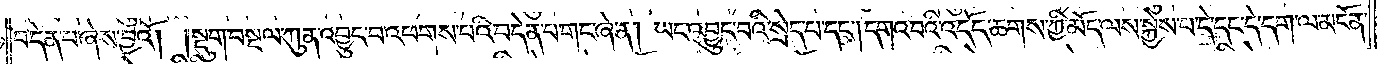བདེན་པ་ཞེས་བྱའོ། །སྡུག་བསྔལ་ཀུན་འབྱུང་བ་འཕགས་པའི་བདེན་པ་གང་ཞེ་ན། ཡང་འབྱུང་བའི་སྲེད་པ་དང༌། དགའ་བའི་འདོད་ཆགས་ཀྱི་མོད་ལས་སྐྱེས་པ་དེ་དང་དེ་དག་ལ་མངོན་
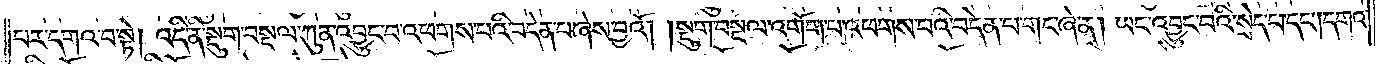པར་དགའ་བ་སྟེ། འདི་ནི་སྡུག་བསྔལ་ཀུན་འབྱུང་བ་འཕགས་པའི་བདེན་པ་ཞེས་བྱའོ། །སྡུག་བསྔལ་འགོག་པ་འཕགས་པའི་བདེན་པ་གང་ཞེ་ན། ཡང་འབྱུང་བའི་སྲེད་པ་དང༌། དགའ་
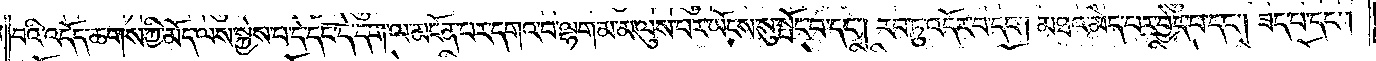བའི་འདོད་ཆགས་ཀྱི་མོད་ལས་སྐྱེས་པ་དེ་དང་དེ་དག་ལ་མངོན་པར་དགའ་བ་ལྷག་མ་མ་ལུས་པར་ཡོངས་སུ་སྤོང་བ་དང༌། རབ་ཏུ་འདོར་བ་དང༌། མཐའ་མེད་པར་བྱེད་པ་དང༌། ཟད་པ་དང༌།
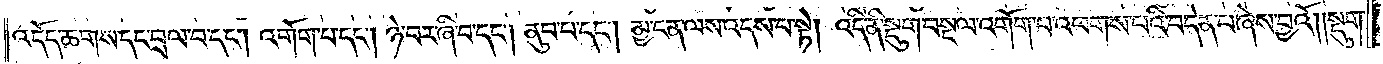འདོད་ཆགས་དང་བྲལ་བ་དང༌། འགོག་པ་དང༌། ཉེ་བར་ཞི་བ་དང༌། ནུབ་པ་དང༌། མྱ་ངན་ལས་འདས་པ་སྟེ། འདི་ནི་སྡུག་བསྔལ་འགོག་པ་འཕགས་པའི་བདེན་པ་ཞེས་བྱའོ། །སྡུག་
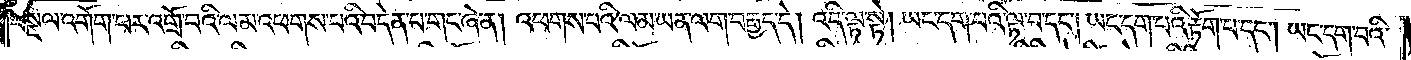བསྔལ་འགོག་པར་འགྲོ་བའི་ལམ་འཕགས་པའི་བདེན་པ་གང་ཞེ་ན། འཕགས་པའི་ལམ་ཡན་ལག་བརྒྱད་དེ། འདི་ལྟ་སྟེ། ཡང་དག་པའི་ལྟ་བ་དང༌། ཡང་དག་པའི་རྟོག་པ་དང༌། ཡང་དག་པའི་
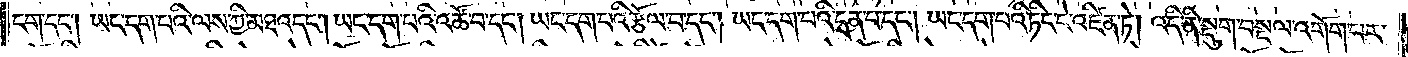ངག་དང༌། ཡང་དག་པའི་ལས་ཀྱི་མཐའ་དང༌། ཡང་དག་པའི་འཚོ་བ་དང༌། ཡང་དག་པའི་རྩོལ་བ་དང༌། ཡང་དག་པའི་དྲན་པ་དང༌། ཡང་དག་པའི་ཏིང་ངེ་འཛིན་ཏེ། འདི་ནི་སྡུག་བསྔལ་འགོག་པར་
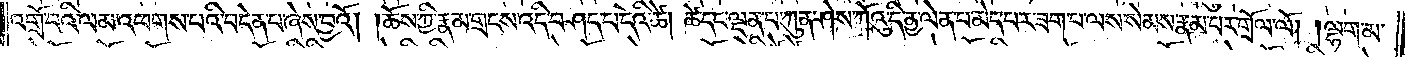འགྲོ་བའི་ལམ་འཕགས་པའི་བདེན་པ་ཞེས་བྱའོ། །ཆོས་ཀྱི་རྣམ་གྲངས་འདི་བཤད་པ་དེའི་ཚེ། ཚེ་དང་ལྡན་པ་ཀུན་ཤེས་ཀོའུ་དི་ནྱ་ལེན་པ་མེད་པར་ཟག་པ་ལས་སེམས་རྣམ་པར་གྲོལ་ལོ། །ལྷག་མ་
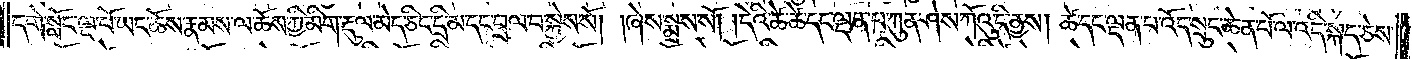དགེ་སློང་ལྔ་པོ་ཡང་ཆོས་རྣམས་ལ་ཆོས་ཀྱི་མིག་རྡུལ་མེད་ཅིང་དྲི་མ་དང་བྲལ་བ་སྐྱེས་སོ། །ཞེས་སྨྲས་སོ། །དེའི་ཚེ་ཚེ་དང་ལྡན་པ་ཀུན་ཤེས་ཀོའུ་དི་ནྱས། ཚེ་དང་ལྡན་པ་འོད་སྲུང་ཆེན་པོ་ལ་འདི་སྐད་ཅེས་
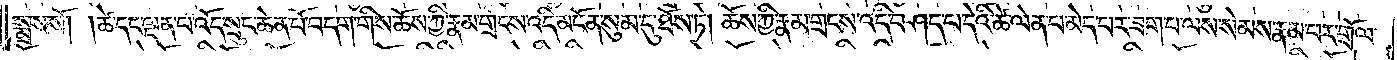སྨྲས་སོ། །ཚེ་དང་ལྡན་པ་འོད་སྲུང་ཆེན་པོ་བདག་གིས་ཆོས་ཀྱི་རྣམ་གྲངས་འདི་མངོན་སུམ་དུ་ཐོས་ཏེ། ཆོས་ཀྱི་རྣམ་གྲངས་འདི་བཤད་པ་དེའི་ཚེ་ལེན་པ་མེད་པར་ཟག་པ་ལས་སེམས་རྣམ་པར་གྲོལ་
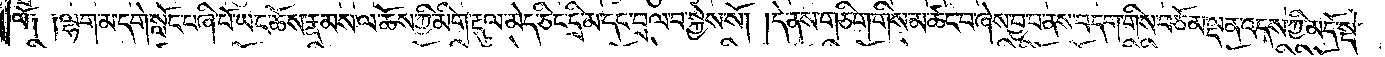ལོ༑ ༑ལྷག་མ་དགེ་སློང་བཞི་པོ་ཡང་ཆོས་རྣམས་ལ་ཆོས་ཀྱི་མིག་རྡུལ་མེད་ཅིང་དྲི་མ་དང་བྲལ་བ་སྐྱེས་སོ། །དེ་ནས་གཅིག་གིས་མ་ཚང་བ་ཞེས་བྱ་བ་ནས་བདག་གིས་བཅོམ་ལྡན་འདས་ཀྱི་མདོ་སྡེ་
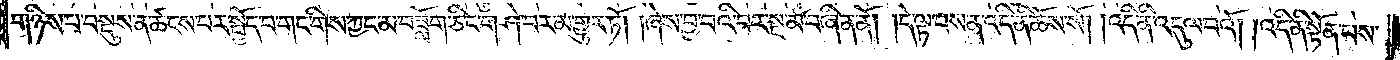གཉིས་པ་བསྡུས་ན་ཚངས་པར་སྤྱོད་པ་གང་གིས་ཀྱང་མ་བཟློག་ཅིང་གཤེ་བར་མ་གྱུར་ཏེ། ཞེས་བྱ་བའི་བར་སྔ་མ་བཞིན་ནོ། །དེ་ལྟ་བས་ན་འདི་ནི་ཆོས་སོ། །འདི་ནི་འདུལ་བའོ། །འདི་ནི་སྟེན་པས་
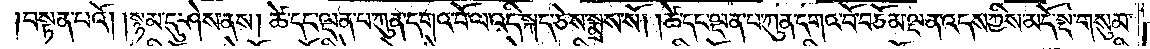།བསྟན་པའོ། །སྙམ་དུ་ཤེས་ནས། ཚེ་དང་ལྡན་པ་ཀུན་དགའ་བོ་ལ་འདི་སྐད་ཅེས་སྨྲས་སོ། །ཚེ་དང་ལྡན་པ་ཀུན་དགའ་བོ་བཅོམ་ལྡན་འདས་ཀྱིས་མདོ་སྡེ་གསུམ་
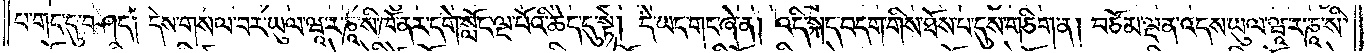པ་གང་དུ་བཤད། དེས་གསལ་བར་ཡུལ་ཝཱ་ར་ཎཱ་སི་ཁོ་ནར་དགེ་སློང་ལྔ་པོའི་ཆེད་དུ་སྟེ། དེ་ཡང་གང་ཞེ་ན། འདི་སྐད་བདག་གིས་ཐོས་པ་དུས་གཅིག་ན། བཅོམ་ལྡན་འདས་ཡུལ་ཝཱ་ར་ཎཱ་སི་
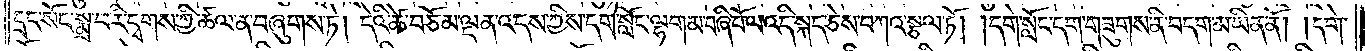དྲང་སོང་སྨྲ་པ་རི་དྭགས་ཀྱི་ཚལ་ན་བཞུགས་ཏེ། དེའི་ཚེ་བཅོམ་ལྡན་འདས་ཀྱིས་དགེ་སློང་ལྷག་མ་བཞི་པོ་ལ་འདི་སྐད་ཅེས་བཀའ་སྩལ་ཏོ། །དགེ་སློང་དག་གཟུགས་ནི་བདག་མ་ཡིན་ནོ། །དགེ་
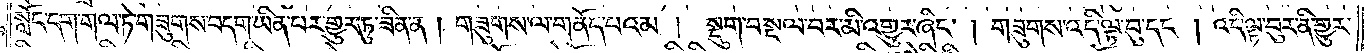སློང་དག་གལ་ཏེ་གཟུགས་བདག་ཡིན་པར་གྱུར་ཏུ་ཟིན་ན། གཟུགས་ལ་གནོད་པའམ། སྡུག་བསྔལ་བར་མི་འགྱུར་ཞིང༌། གཟུགས་འདི་ལྟ་བུ་དང༌། འདི་ལྟ་བུར་ནི་གྱུར་
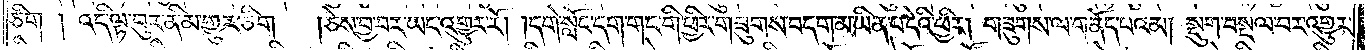ཅིག །འདི་ལྟ་བུར་ནི་མ་གྱུར་ཅིག །ཅེས་བྱ་བར་ཡང་འགྱུར་རོ། །དགེ་སློང་དག་གང་གི་ཕྱིར་གཟུགས་བདག་མ་ཡིན་པ་དེའི་ཕྱིར། གཟུགས་ལ་གནོད་པའམ། སྡུག་བསྔལ་བར་འགྱུར་
